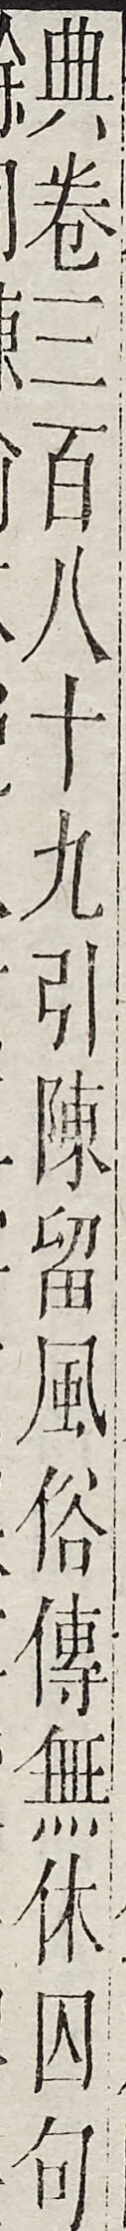典卷三百八十九引陳溜風俗傳無休囚句
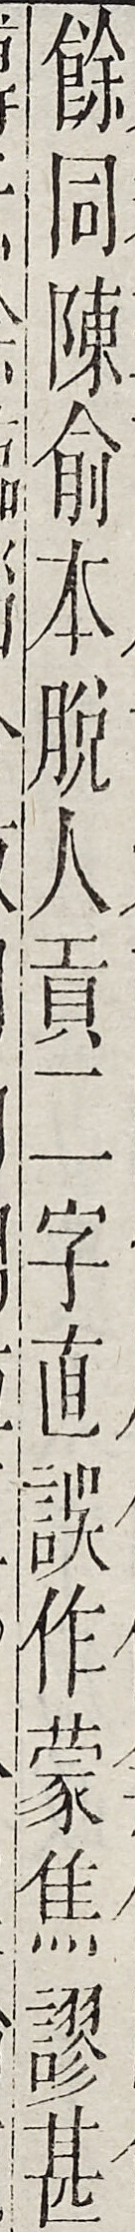餘同陳俞本脫人貢二字直誤作蒙焦謬甚
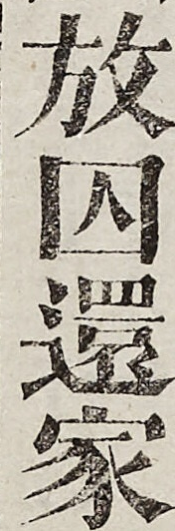放囚還家
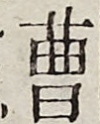曹
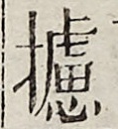攄
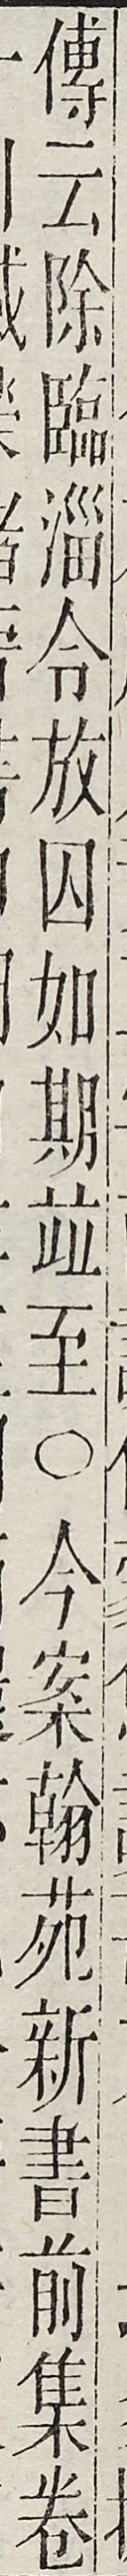傅云除臨淄合放囚如期並至○今案翰苑新書前集卷
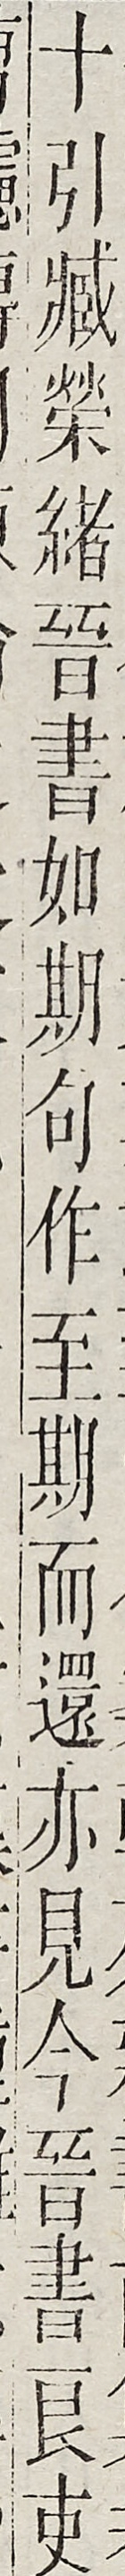十引臧榮緒晉書如期句作至期而還亦見今晉書良吏
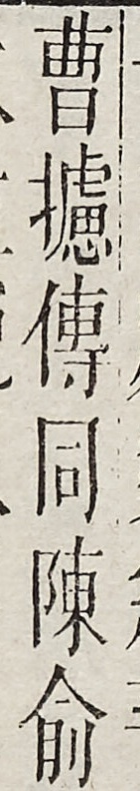曹攄傳同陳俞
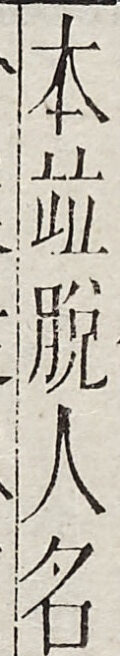本並脫人名
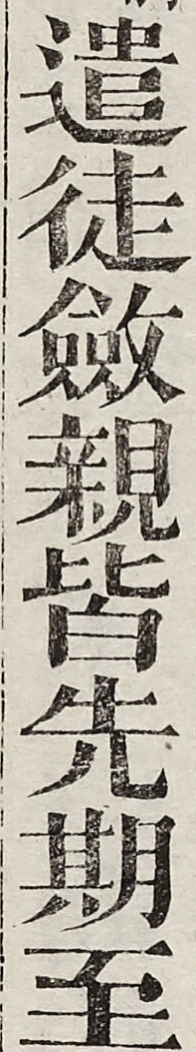遣徒斂親皆先期至
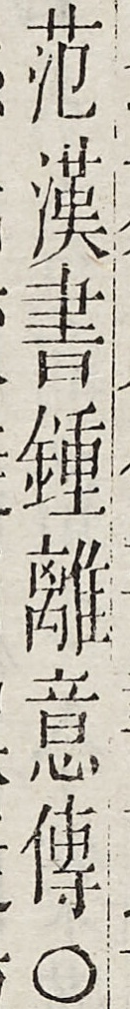範漢書鍾離意傳○
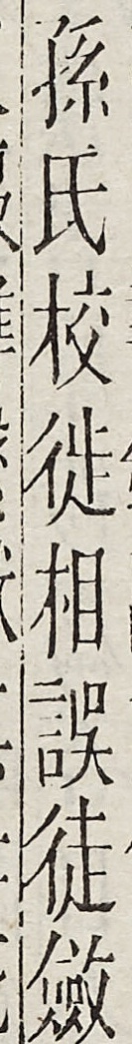孫氏校徒相誤徒斂
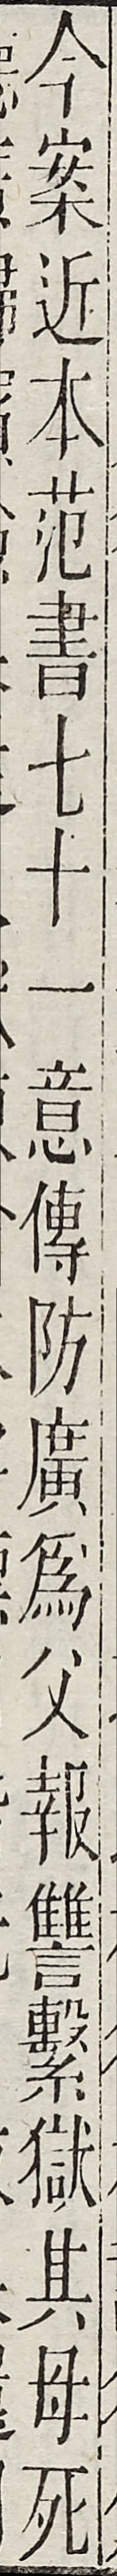今案近本範書七十一意傳防廣為父報讎系獄其母死
